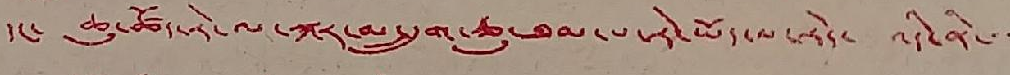དང་ ཆུ་ཚོད་རེ་ལ་སྐར་མ་དྲུག་ཅུ་ཐམ་པ་རེ་ཡོད་པ་རེད་ འདི་ནི་་་
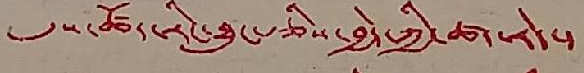དུས་ཚོད་རིང་ཐུང་རྩིས་བྱེད་ཀྱི་ཚད་རེད་།
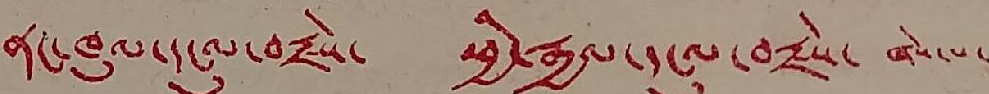ནང་ཁུལ་དངུལ་བརྗེས་ ཕྱི་རྒྱལ་དངུལ་བརྗེས་ ཞེས་པ་
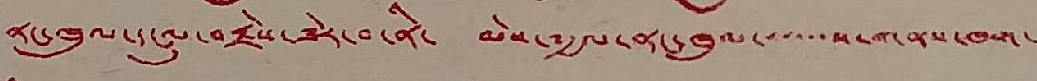ནང་ཁུལ་དངུལ་བརྗེས་ཟེར་བ་ནི་ མེས་༸རྒྱལ་ནང་ཁུལ་་་་་་ས་གནས་ཁག་
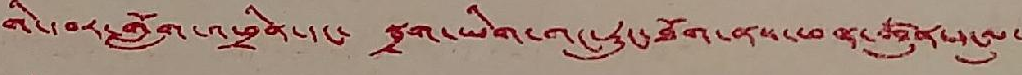གི་དབར་གློག་འཕྲིན་དང་ སྦྲག་ཡིག་གང་རུང་ཐོག་ནས་ཕན་ཚུན་དངུལ་
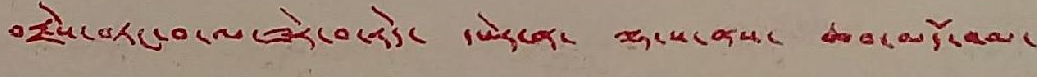བརྗེས་བཏང་བ་ལ་ཟེར་བ་རེད་ དཔེར་ན་ ལྷ་ས་ནས་ ཆབ་མདོ་འམ་
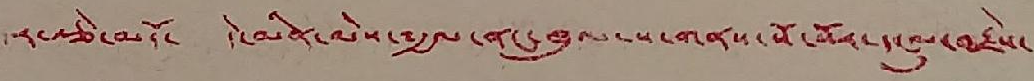དར་རྩེ་མདོ་ དེ་མིན་མེས་༸རྒྱལ་ནང་ཁུལ་ས་གནས་སོ་སོར་དངུལ་བརྗེས་
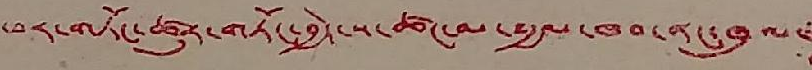ཕར་གཏོང་ཚུར་གཏོང་བྱེད་ས་ཚང་མ་༸རྒྱལ་ཁབ་ནང་ཁུལ་
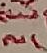ལ་
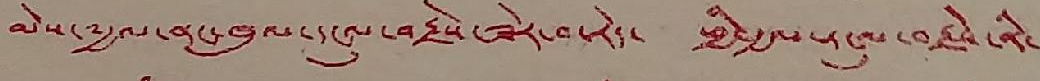མེས་༸རྒྱལ་ནང་ཁུལ་དངུལ་བརྗེས་ཟེར་བ་རེད་ ཕྱི་རྒྱལ་དངུལ་བརྗེས་ནི་
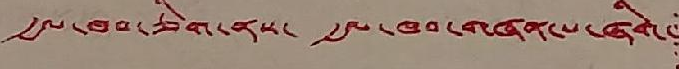རྒྱལ་ཁབ་ཅིག་ནས་ རྒྱལ་ཁབ་གཞན་པ་ཞིག་
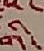གི་
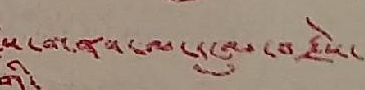ས་གནས་ལ་དངུལ་བརྗེས་
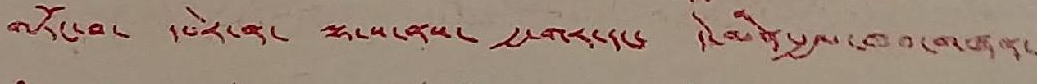གཏོང་བ་ དཔེར་ན་ ལྷ་ས་ནས་ རྒྱ་གར་དང་ དེ་མིན་རྒྱལ་ཁབ་གཞན་
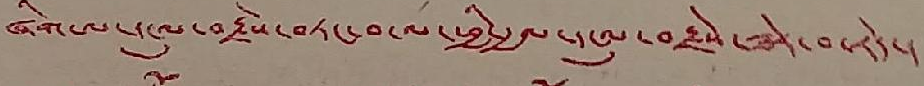ཞིག་ལ་དངུལ་བརྗེས་བཏང་བ་ལ་ཕྱི་རྒྱལ་དངུལ་བརྗེས་ཟེར་བ་རེད་།
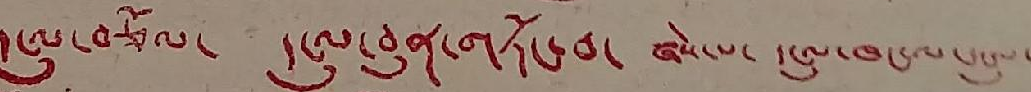དངུལ་བཅོལ་ དངུལ་བུན་གཏོང་བ་ ཞེས་པ་ དངུལ་ཁང་ལ་དངུལ་
